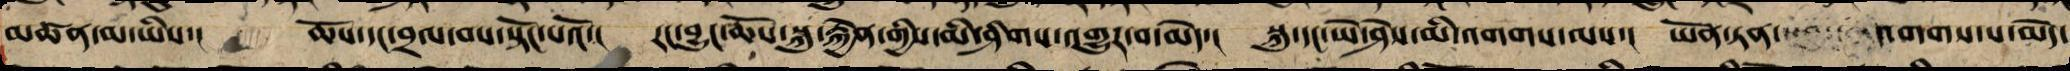མཚན་མ་ཡིས་། ཆོས་དང་བྲལ་བས་སྟོང་པའོ་། རང་བྱུང་ཆོས་སྐུ་རྐྱེན་གྱིས་མི་ཤིགས་འགྱུར་བ་མེད་། སྐུ་དང་ཡེ་ཤེས་མི་འགག་ལས་། ཡོན་ཏན་ འགགས་པ་མེད་
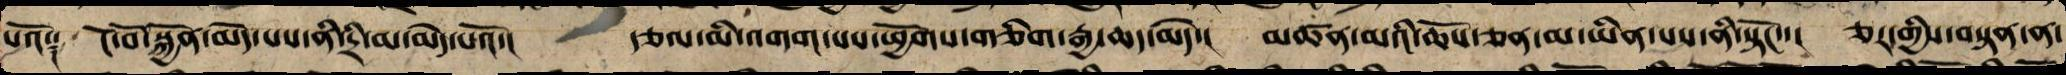པའོ༑ ངོ་བོ་སྐྱོན་མེད་པས་ནི་དྲི་མ་མེད་པའོ་། རྩལ་མི་འགག་པས་ཕྱོགས་གཅིག་རྒྱ་ཆད་མེད་། མཚན་མའི་ཆོས་ཅན་མ་ཡིན་པས་ནི་སྟོང་་། ཅར་གྱིས་བསྟན་ན་
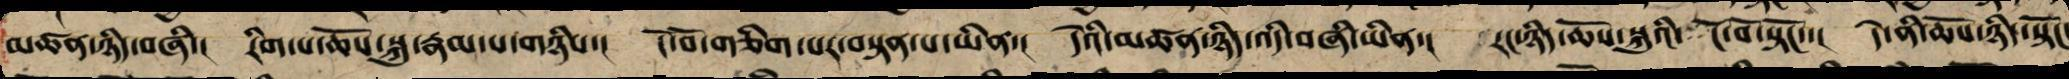མཚན་ཉིད་བཞི་། རིག་པ་ཆོས་སྐུ་རྣམ་པ་གཉིས་། ངོ་བོ་གཅིག་པར་བསྟན་པ་ཡིན་། དེའི་མཚན་ཉིད་འདི་བཞི་ཡིན་། རང་ཉིད་ཆོས་སྐུའི་ ངོ་བོ་སྟོང་་། དེ་ནི་ཆོས་ཉིད་སྟོང་
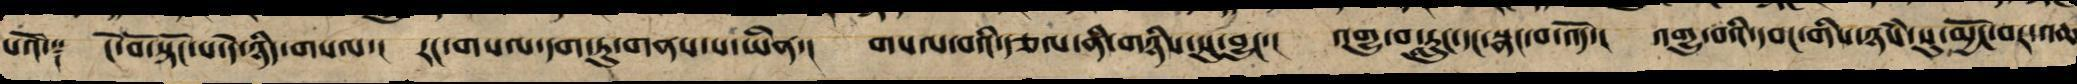པའོ༑ ངོ་བོ་སྟོང་པ་དེ་ཉིད་གསལ་། རང་གསལ་དག་ཏུ་གནས་པ་ཡིན་། གསལ་བའི་རྩལ་ནི་གཉིས་སུ་འབྱུང་། འགྱུ་བ་རླུང་དང་སྣང་བ་འོད་། འགྱུ་བའི་དབང་གིས་ཉཾས་སུ་མྱོང་བར་འཆ
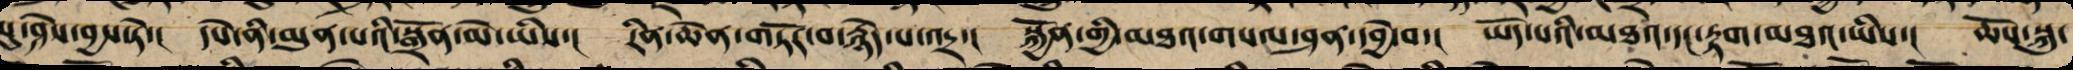སུ་ཤེས་བྱ་ཏེ་། དཔེ་ནི་མུན་པའི་སྒྲོན་མ་ཡིས་། རིན་ཆེན་གཏོར་བ་རྙེད་པ་འདྲ་། སྐྱོན་གྱི་མཐའ་གསལ་ཤན་དབྱེ་བ་། ཡོད་པའི་མཐའ་དང་རྟག་མཐའ་ཡིས་། ཆོས་སྐུ་
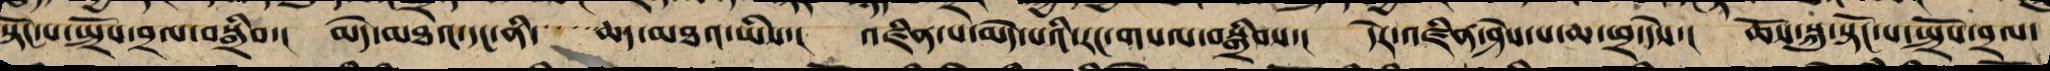སྟོང་པ་སྤྲོས་བྲལ་བསྒྲིབ་། མེད་མཐའ་དང་ནི་་་་་ཆད་མཐའ་ཡིས་། འཛིན་པ་མེད་པའི་རང་གསལ་བསྒྲིབས་། དེར་འཛིན་ཤེས་པ་ཆ་ཕྲ་དེས་། ཆོས་སྐུ་སྟོང་པ་སྤྲོས་བྲལ་
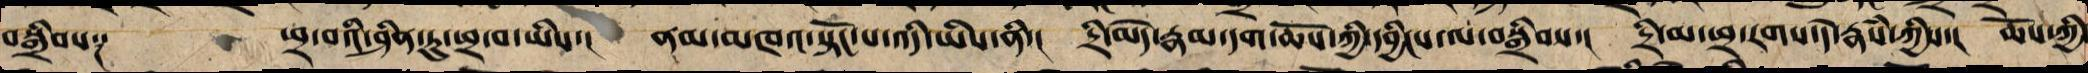བསྒྲིབས༑ ཕྲ་བའི་ཤིན་དུ་ཕྲ་བ་ཡིས་། ནམ་མཁའ་སྟོང་པ་འདི་ཡིས་ནི་། དྲི་མེད་རྣམ་དག་ཆོས་ཀྱི་དབྱིངས་ལ་བསྒྲིབས་། དྲི་མ་ཕྲ་རགས་དེ་རྣཾས་ཀྱིས་། ཆོས་ཀྱི་
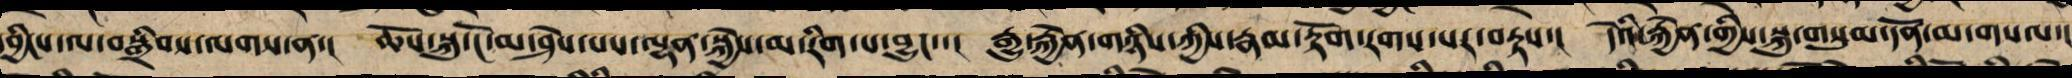དབྱིངས་ལ་བསྒྲིབས་ལགས་ན་། ཆོས་སྐུ་ངོ་མ་ཤེས་པས་ལྷན་སྐྱེས་མ་རིག་བྱུང་་། རྒྱུ་རྐྱེན་གཉིས་ཀྱིས་རྣམ་རྟོག་རགས་པ་བརྟས་། དེ་ཡི་རྐྱེན་གྱིས་སྐུ་གསུམ་དོན་མ་གསལ་།
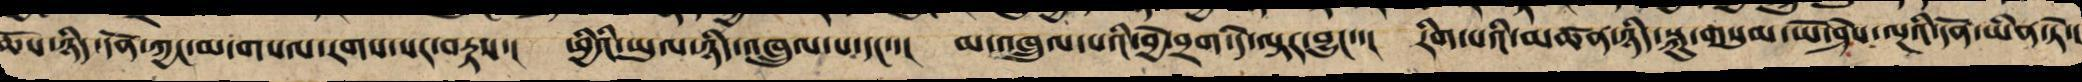ཆོས་ཉིད་དོན་ཀྱང་མ་གསལ་རགས་པར་བརྟས་། ཕྱིའི་ཡུལ་ཉིད་འཁྲུལ་པ་དང་་། མ་འཁྲུལ་པའི་བྱེ་བྲག་དེ་ལྟར་བྱུང་་། རིག་པའི་མཚན་ཉིད་སྐུ་གསུམ་ཡེ་ཤེས་ལྔའི་དོན་ཡིན་ཏེ་།
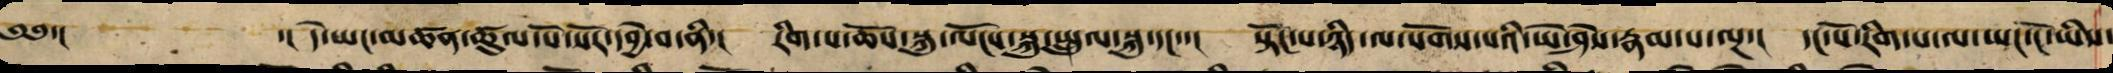༄༅་། ་། དེ་ཡང་མཚན་ཚུལ་སོ་སོར་དབྱེ་བ་ནི་། རིག་པ་ཆོས་སྐུ་ལོངས་སྐུ་སྤྲུལ་སྐུ་དང་་། སྟོང་པ་ཉིད་ལ་སོགས་པའི་ཡེ་ཤེས་རྣམ་པ་ལྔ་། དང་པོ་རིག་པ་ལ་ཡང་ངོ་ཡིས་
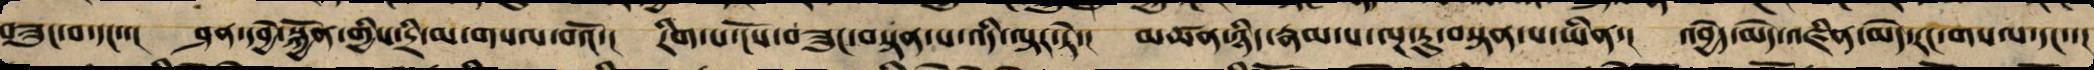བཟུང་བ་དང་་། ཤན་དབྱེ་སྐྱོན་གྱིས་དྲི་མ་གསལ་བའོ་། རིག་པ་ངོས་བཟུང་བསྟན་པ་འདི་ལྟར་ཏེ་། མཚན་ཉིད་རྣམ་པ་ལྔ་རུ་བསྟན་པ་ཡིན་། འབྱེད་མེད་འཛིན་མེད་རང་གསལ་དང་་།
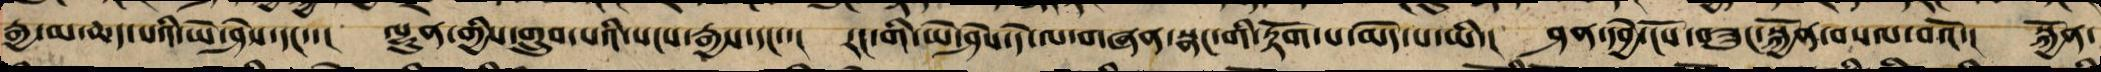རྒྱ་མ་ཆད་པའི་ཡེ་ཤེས་དང་་། ལྷུན་གྱིས་གྲུབ་པའི་སངས་རྒྱས་དང་་། རང་གི་ཡེ་ཤེས་དེ་ལ་གཞན་སྣང་གི་རྟོག་པ་མེད་པ་ཡི་། ཤན་དབྱེ་ངོས་བཟུང་སྐྱོན་བསལ་བའོ་། སྐྱོན་
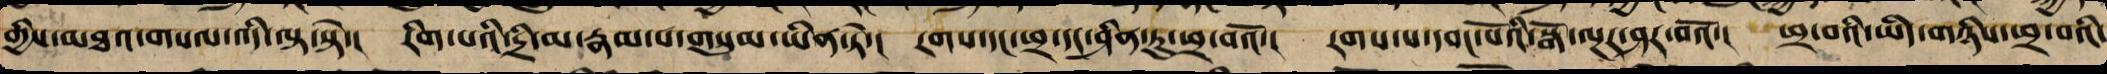གྱིས་མཐའ་གསལ་འདི་ལྟ་སྟེ་། རིག་པའི་དྲི་མ་རྣམ་པ་གསུམ་ཡིན་ཏེ་། རགས་དང་ཕྲ་དང་ཤིན་ཏུ་ཕྲ་བའོ་། རགས་པ་དབང་པོའི་སྒོ་ལྔར་ཤར་བའོ་། ཕྲ་བའི་ཡིད་གཉིས་ཕྲ་བའི་
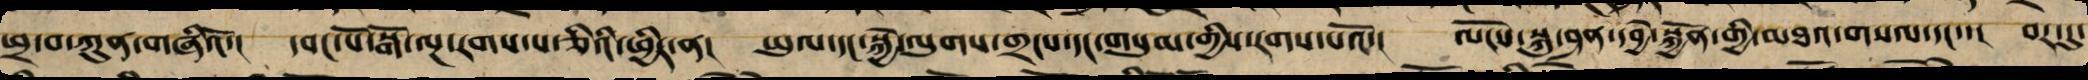ཕྲ་བ་ཀུན་གཞིའོ་། དབང་པོ་སྒོ་ལྔ་རགས་པ་ཅིའི་ཕྱིར་ན། ཡུལ་དང་སྐྱེ་ལུགས་གྲངས་དང་གསུམ་གྱིས་རགས་པའོ་། ལོངས་སྐུ་ཤན་དབྱེ་སྐྱོན་གྱི་མཐའ་གསལ་དང་་། བར་དུ་
